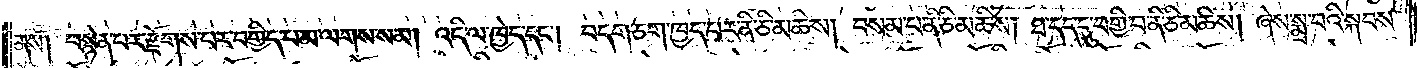ནས། བསྙེན་པར་རྫོགས་པར་བགྱིད་པ་མ་ལགས་སམ། འདི་ལ་ཁྱེད་དང༌། བདག་ཅག་ཁྱད་པར་ནི་ཅི་མཆིས། བསམ་པ་ནི་ཅི་མཆིས། ཐ་དད་དུ་བགྱི་བ་ནི་ཅི་མཆིས། ཞེས་སྨྲ་བའི་སྐབས་
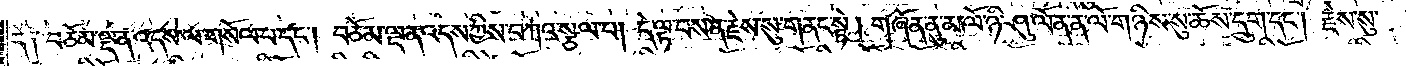དེ། བཅོམ་ལྡན་འདས་ལ་གསོལ་བ་དང༌། བཅོམ་ལྡན་འདས་ཀྱིས་བཀའ་སྩལ་པ། དེ་ལྟ་བས་ན་རྗེས་སུ་གནང་སྟེ། གཞོན་ནུ་མ་ལོ་ཉི་ཤུ་ལོན་ན་ལོ་གཉིས་སུ་ཆོས་དྲུག་དང༌། རྗེས་སུ་
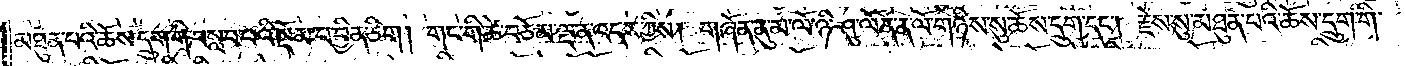མཐུན་པའི་ཆོས་དྲུག་གི་བསླབ་པའི་སྡོམ་པ་བྱིན་ཅིག །གང་གི་ཚེ་བཅོམ་ལྡན་འདས་ཀྱིས། གཞོན་ནུ་མ་ལོ་ཉི་ཤུ་ལོན་ན་ལོ་གཉིས་སུ་ཆོས་དྲུག་དང༌། རྗེས་སུ་མཐུན་པའི་ཆོས་དྲུག་གི་
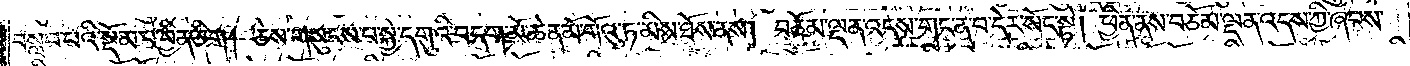བསླབ་པའི་སྡོམ་པ་བྱིན་ཅིག །ཅེས་གསུངས་པ་སྐྱེ་དགུའི་བདག་མོ་ཆེན་མོ་གོའུ་ཏ་མིས་ཐོས་ནས། བཅོམ་ལྡན་འདས་གང་ན་བ་དེར་སོང་སྟེ། ཕྱིན་ནས་བཅོམ་ལྡན་འདས་ཀྱི་ཞབས་
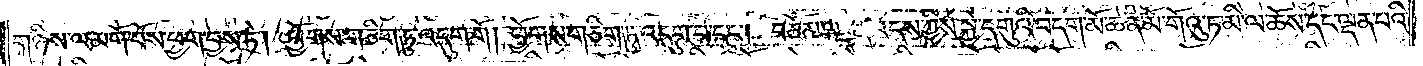གཉིས་ལ་མགོ་བོས་ཕྱག་བྱས་ཏེ། ཕྱོགས་གཅིག་ཏུ་འདུག་གོ། ཕྱོགས་གཅིག་ཏུ་འདུག་པ་དང༌། བཅོམ་ལྡན་འདས་ཀྱིས་སྐྱེ་དགུའི་བདག་མོ་ཆེན་མོ་གོའུ་ཏ་མི་ལ་ཆོས་དང་ལྡན་པའི་
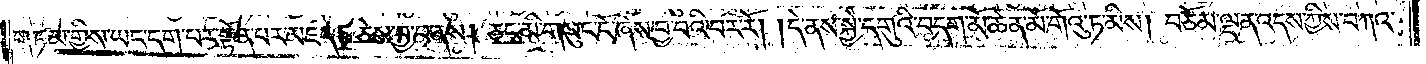གཏམ་གྱིས་ཡང་དག་པར་སྟོན་པར་མཛད། ཅེས་བྱ་བ་ནས། ཅང་མི་གསུང་ངོ་ཞེས་བྱ་བའི་བར་རོ། །དེ་ནས་སྐྱེ་དགུའི་བདག་མོ་ཆེན་མོ་གོའུ་ཏ་མིས། བཅོམ་ལྡན་འདས་ཀྱིས་བཀའ་
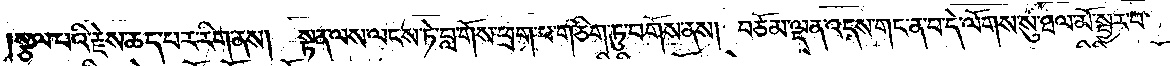སྩལ་པའི་རྗེས་ཆད་པར་རིག་ནས། སྟན་ལས་ལངས་ཏེ་བླ་གོས་ཕྲག་པ་གཅིག་ཏུ་བགོས་ནས། བཅོམ་ལྡན་འདས་གང་ན་བ་དེ་ལོགས་སུ་ཐལ་མོ་སྦྱར་བ་
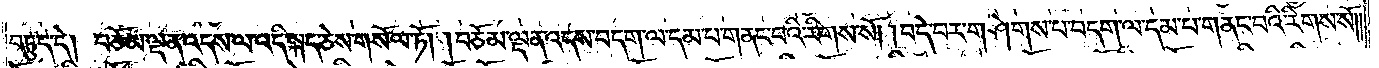བཏུད་དེ། བཅོམ་ལྡན་འདས་ལ་འདི་སྐད་ཅེས་གསོལ་ཏོ། །བཅོམ་ལྡན་འདས་བདག་ལ་དམ་པ་གནང་བའི་རིགས་སོ། །བདེ་བར་གཤེགས་པ་བདག་ལ་དམ་པ་གནང་བའི་རིགས་སོ༎
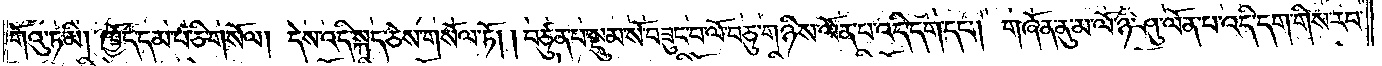གོའུ་ཏ་མི། ཁྱོད་དམ་པ་ཅི་གསོལ། དེས་འདི་སྐད་ཅེས་གསོལ་ཏོ། །བཙུན་པ་སྡུམ་སོ་བཟུང་བ་ལོ་བཅུ་གཉིས་ལོན་པ་འདི་དག་དང༌། གཞོན་ནུ་མ་ལོ་ཉི་ཤུ་ལོན་པ་འདི་དག་གིས་རབ་
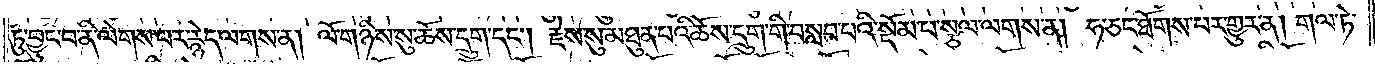ཏུ་བྱུང་བ་ནི་ལེགས་པར་རྙེད་ལགས་ན། ལོ་གཉིས་སུ་ཆོས་དྲུག་དང༌། རྗེས་སུ་མཐུན་པའི་ཆོས་དྲུག་གི་བསླབ་པའི་སྡོམ་པ་སྩལ་ལགས་ན། ཧ་ཅང་ཐོགས་པར་གྱུར་ན། གལ་ཏེ་
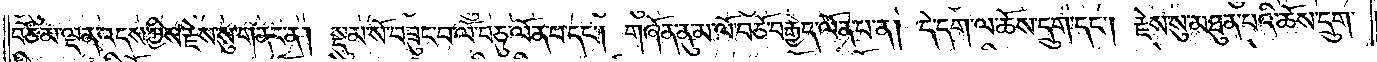བཅོམ་ལྡན་འདས་ཀྱིས་རྗེས་སུ་གནང་ན། སྡུམ་སོ་བཟུང་བ་ལོ་བཅུ་ལོན་པ་དང༌། གཞོན་ནུ་མ་ལོ་བཅོ་བརྒྱད་ལོན་པ་ན། དེ་དག་ལ་ཆོས་དྲུག་དང༌། རྗེས་སུ་མཐུན་པའི་ཆོས་དྲུག་
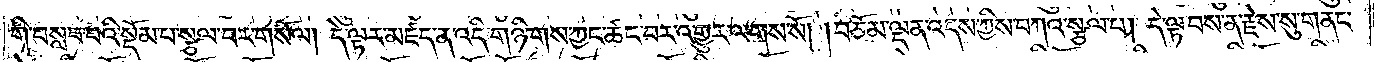གི་བསླབ་པའི་སྡོམ་པ་སྩལ་པར་གསོལ། དེ་ལྟར་མཛད་ན་འདི་གཉི་གས་ཀྱང་ཚང་བར་འགྱུར་ལགས་སོ། །བཅོམ་ལྡན་འདས་ཀྱིས་བཀའ་སྩལ་པ། དེ་ལྟ་བས་ན་རྗེས་སུ་གནང་
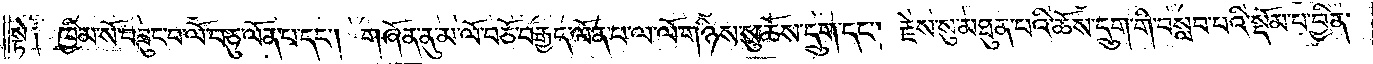སྟེ༑ ཁྱིམ་སོ་བཟུང་བ་ལོ་བཅུ་ལོན་པ་དང༌། གཞོན་ནུ་མ་ལོ་བཅོ་བརྒྱད་ལོན་པ་ལ་ལོ་གཉིས་སུ་ཆོས་དྲུག་དང༌། རྗེས་སུ་མཐུན་པའི་ཆོས་དྲུག་གི་བསླབ་པའི་སྡོམ་པ་བྱིན་
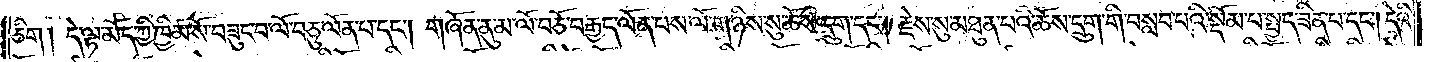ཅིག། དེ་ལྟ་མོད་ཀྱི་ཁྱིམ་སོ་བཟུང་བ་ལོ་བཅུ་ལོན་པ་དང༌། གཞོན་ནུ་མ་ལོ་བཅོ་བརྒྱད་ལོན་པས་ལོ་གཉིས་སུ་ཆོས་དྲུག་དང༌། རྗེས་སུ་མཐུན་པའི་ཆོས་དྲུག་གི་བསླབ་པའི་སྡོམ་པ་སྤྱད་ཟིན་པ་དང༌། དེའི་
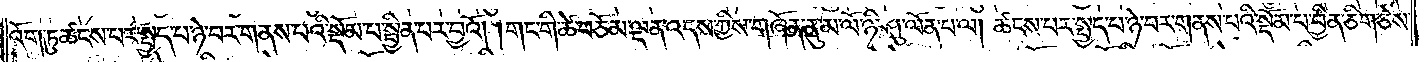འོག་ཏུ་ཚངས་པར་སྤྱད་པ་ཉེ་བར་གནས་པའི་སྡོམ་པ་སྦྱིན་པར་བྱའོ། །གང་གི་ཚེ་བཅོམ་ལྡན་འདས་ཀྱིས་གཞོན་ནུ་མ་ལོ་ཉི་ཤུ་ལོན་པ་ལ། ཚངས་པར་སྤྱད་པ་ཉེ་བར་གནས་པའི་སྡོམ་པ་བྱིན་ཅིག་ཅེས་
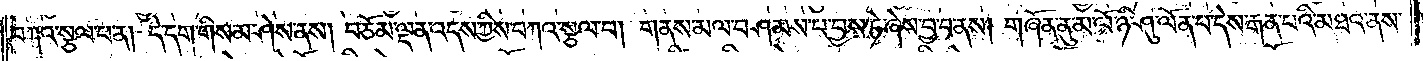བཀའ་སྩལ་པ་ན། དེ་དག་གིས་མ་ཤེས་ནས། བཅོམ་ལྡན་འདས་ཀྱིས་བཀའ་སྩལ་པ། གནས་མལ་བཤམས་པ་བྱས་ཏེ་ཞེས་བྱ་བ་ནས། གཞོན་ནུ་མ་ལོ་ཉི་ཤུ་ལོན་པ་དེས་རྒན་པའི་མཐའ་ནས་
